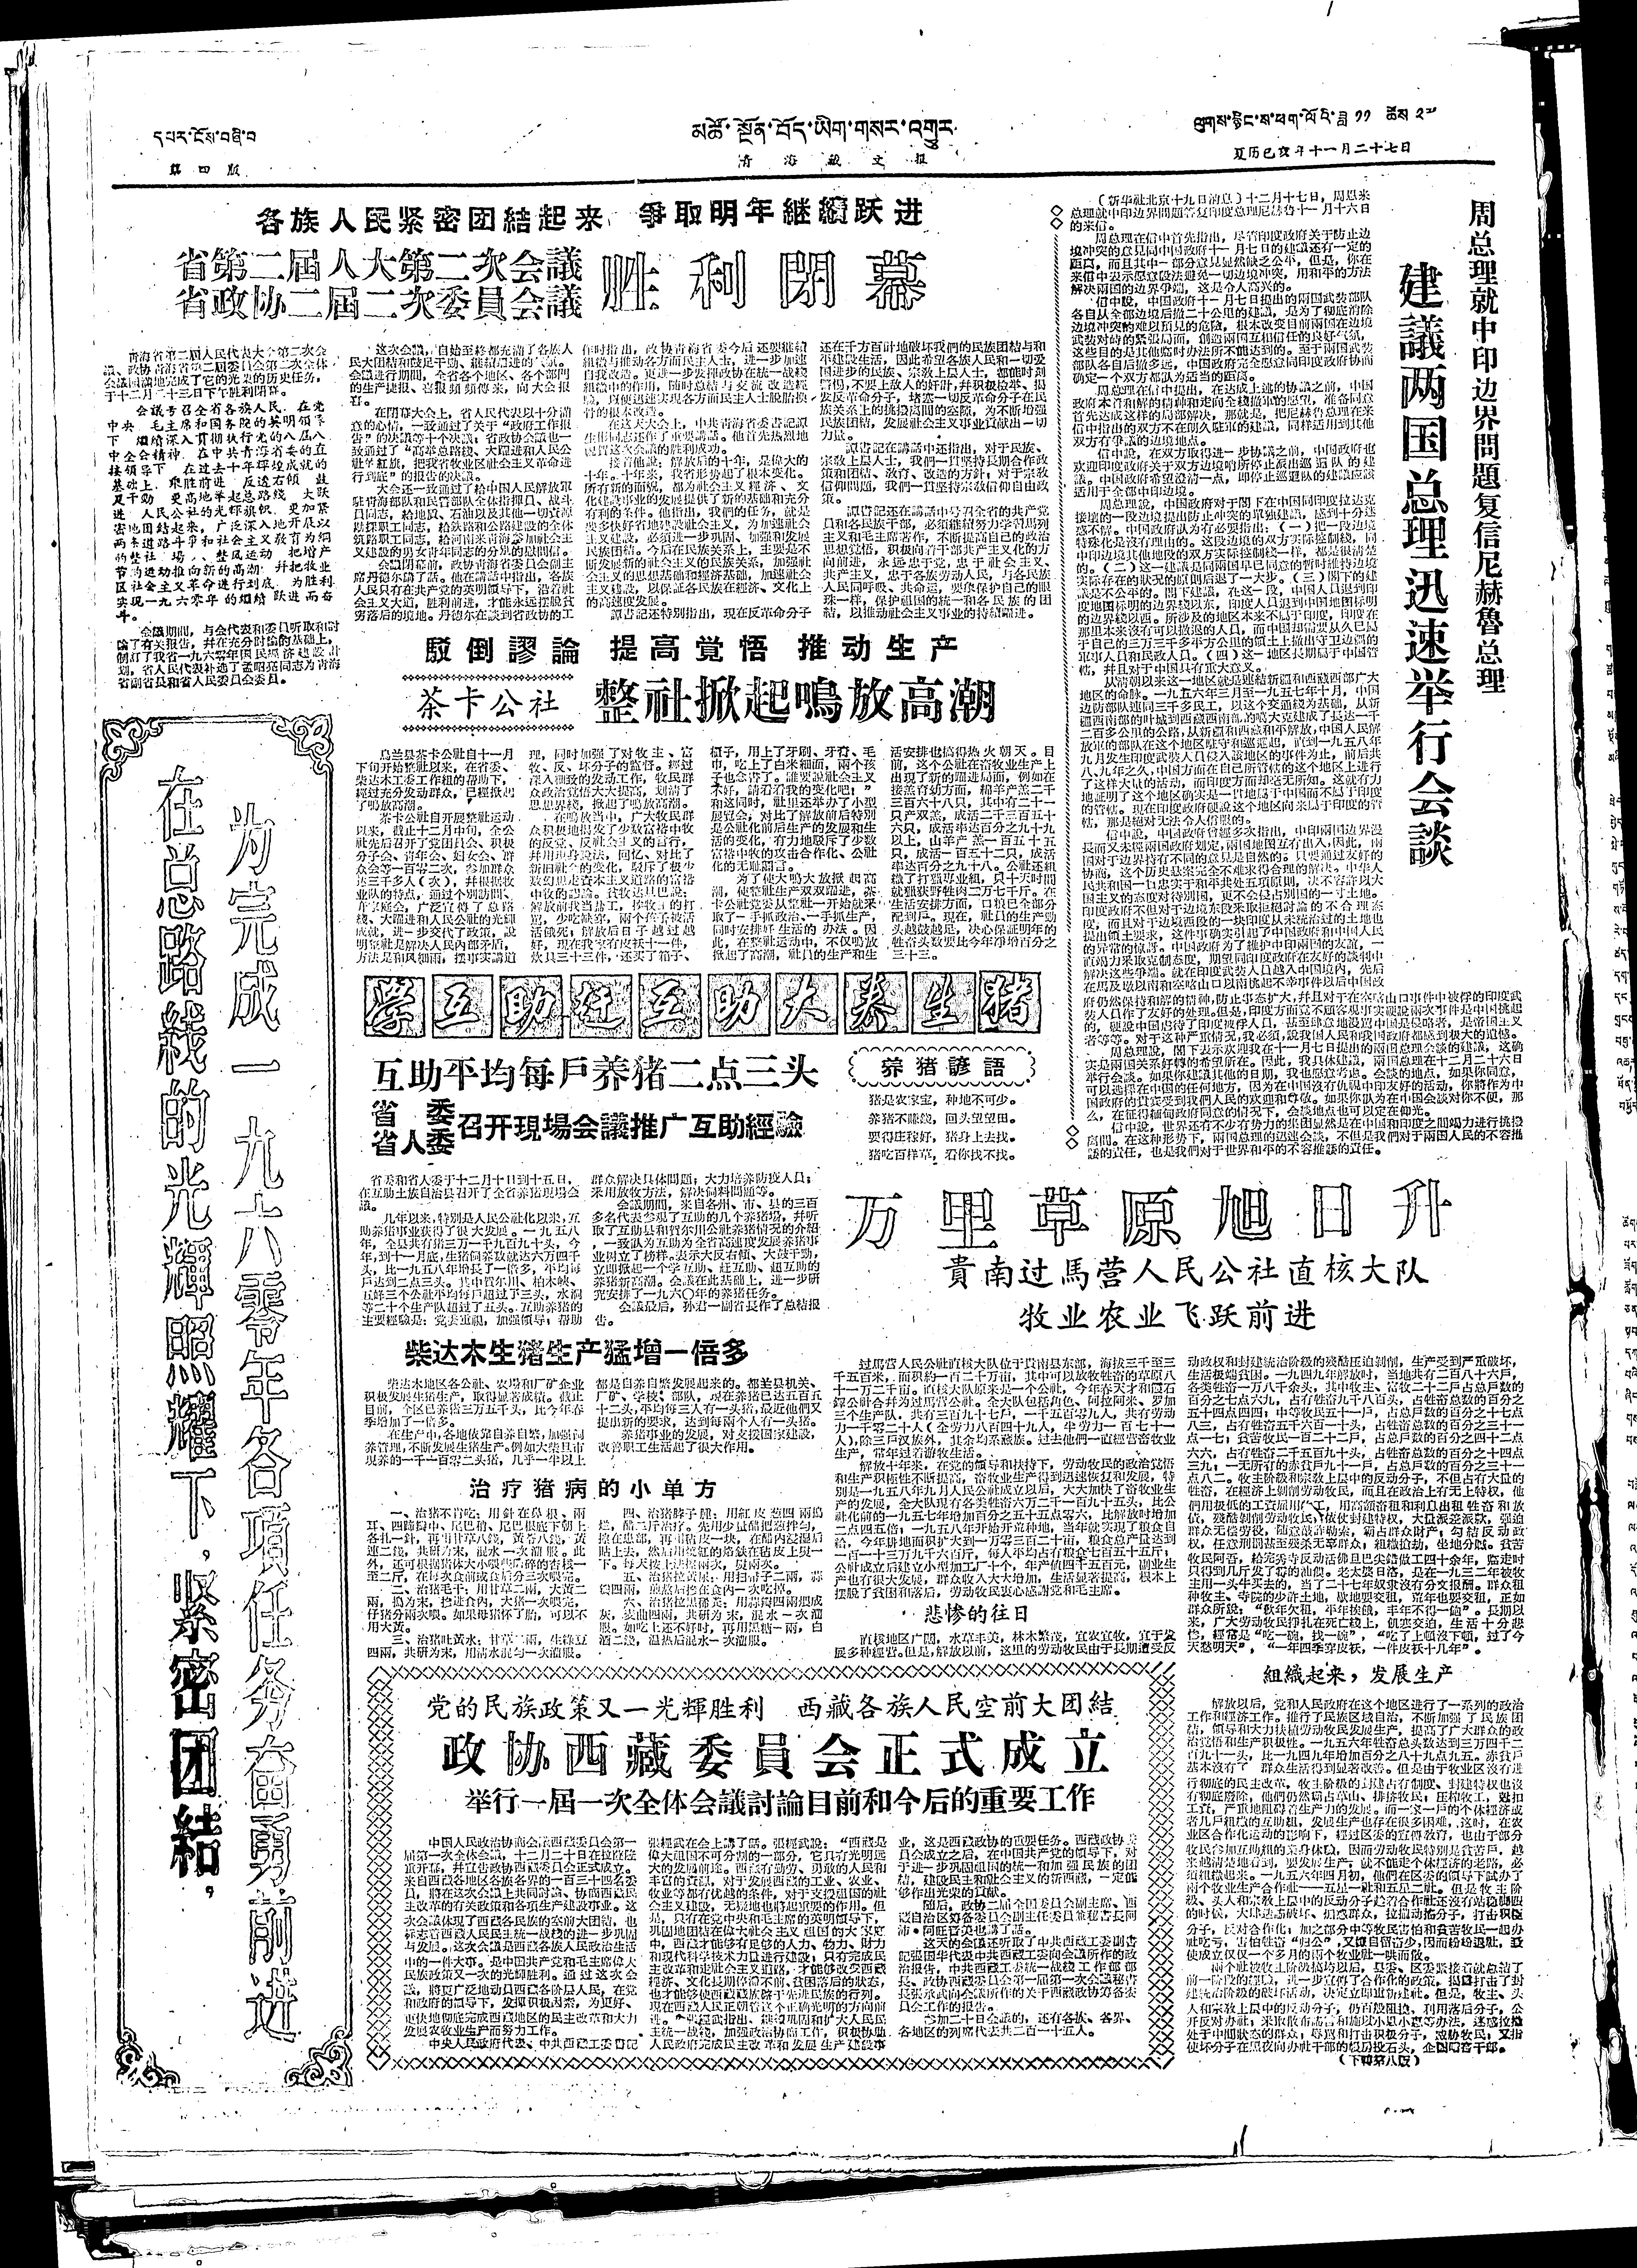དཔར་ངོས་བཞི་བ མཚོ་སྔོན་བོད་ཡིག་གསར་འགྱུར ལུགས་རྙིང་ས་ཕག་ལོའི་ཟླ ༡༡ ཚེས ༢༧
第 四 版 青 海 藏 文 报 夏历己亥年十一月二十七日
各族人民緊密团結起来，爭取明年継續跃进
省第二屆人大第二次会議
省政協二屆二次委員会議
胜 利 閉 幕
靑海省第二屆人民代表大会第二次公
議、政协靑海省第二屆委員会第二次全体
会議圆滿地完成了它的光荣的历史任务，
于十二月二十三日下午胜利閉幕。
会議号召全省各族人民，在党
中央、毛主席和国务院的英明領导
下 継續深入貫彻执行党的八屆八
中全会精神，在中共靑海省委的直
接領导下 在过去十年輝煌成就的
基础上，乘胜前进 反透右傾 鼓
足干勁 更高地举起总路綫 大跃
进 人民公社的光輝旗帜，又加紧
密地团結起来，广泛深入地开展以
两条道路斗爭和社会主义敎育为綱
的整社 場 、整风运动，把增产
节约运动推向新的高潮，并把牧业
区社全主义革命进行到底，为胜利
实現一九六零年的継續 跃进而奋
斗。
会議期間，与会代表和委員听取和討
論了有关报告，并在充分討論的基础上，
制訂了我省一九六零年国民經济建設計
划，省人民代表补选了孟昭亮同志为靑海
省副省長和省人民委員会委員。
这次会議，自始至終都充滿了各族人
民大团結和鼓足干勁、継續躍进的气氛。
会議进行期間，全省各个地区、各个部門
的生产捷报、喜报頻頻傳来，向大会报
喜。
在閉幕大会上。省人民代表以十分滿
意的心情，一致通过了关于“政府工作报
告”的決議等十个決議：省政协会議也一
致通过了“高举总路綫、大躍进和人民公
社的紅旗，把我省牧业区社会主义革命进
行到底”的报告的決議。
大会还一致通过了給中国人民解放軍
駐靑海部队和民警部队全体指揮員、战斗
員同志，給地貭、石油以及其他一切資源
勘探职工同志，給鉄路和公路建設的全体
筑路职工同志，給河南来靑海參加社会主
义建設的男女靑年同志的分别的慰間信。
会議閉幕前，政协靑海省委員会副主
席丹德尔講了話。他在講話中指出，各族
人民只有在共产党的英明領导下，沿着社
会主义大道，胜利前进，才能永远摆脫貧
穷落后的境地。丹德尔在談到省政协的工
作时指出，政协靑海省委今后还要継續
組織与推动各方面民主人士，进一步加速
自我改造。更进一步发揮政协在統一战綫
組織中的作用，随时总結与交流改造經
驗，以便迅速实現各方面民主人士脫胎換
骨的根本改造。
在这天大会上，中共靑海省委書記譚
生彬同志还作了重要講話。他首先热烈地
祝賀这次会議的胜利成功。
接着他說：解放后的十年，是偉大的
十年。十年来，我省形势起了根本变化。
所有新的面貌，都为社会主义經济、文
化建設事业的发展提供了新的基础和充分
有利的条件。他指出，我們的任务，就是
要多快好省地建設社会主义，为加速社会
主义建沒，必須进一步巩固、加強和发展
民族团結。今后在民族关系上，主要是不
断发展新的社会主义的民族关系，加強社
会主义的思想建础和經济运础，加速社会
主义建設，以保社各民族在經济、文化上
的高速度发展。
譚書記还特別指出，現在反革命分子
还在千方百計地破坏我們的民族团結与和
平建設生活，因此希望各族人民和一切爱
国进步的民族、宗敎上层人士，都能时刻
警惕，不要上敌人的奸計，并积极檢举、揭
发反革命分子，堵塞一切反革命分子在民
族关系上的挑撥离間的空隙，为不断增強
民族团結，发展社会主义事业貢献出一切
力量。
譚書記在講話中还指出，对于民族、
宗敎上民人士，我們一貫坚持長期合作政
策和团結、敎育、改造的方針；对于宗敎
信仰問題，我們一貫坚持宗敎信仰自由政
策。
譚書記还在講話中号召全省的共产党
員和各民族干部，必須継續努力学習馬列
主义和毛主席著作，不断提高自己的政治
思想覚悟，积极向着干部共产主义化的方
向前进，永远忠于党，忠于社会主义、
共产主义，忠于各族劳动人民，与各民族
人民同呼吸、共命运，要象保护自己的眼
珠一样，保护祖国的統一和各民族的团
結，以推动社会主义事並的持續躍进。
駁 倒 謬 論 提 高 覚 悟 推 动 生 产
茶卡公社
整社掀起鳴放高潮
烏兰县茶卡公社自十一月
下旬开始整社以来，在省委、
柴达木工委工作組的帮助下，
經过充分发动群众，已經掀起
了鳴放高潮。
茶卡公社白开展整社运动
以来，截止十二月中旬，全公
社先后召开了党团員会、积极
分子会、靑年会、妇女会、群
众会等一百零二次，參加群众
达三千多人（次），并根据牧
业队的特点，通过个別訪問、
开家庭会，广泛宣傳了总路
綫、大躍进和人民公社的光輝
成就，进一步交代了政策，說
明整社是解決人民內部矛盾，
方法是和风細雨，摆事实講道
理，同时加强了对牧主、富
牧、反、坏分子的监督。經过
深入細致的发动工作，牧民群
众政治覚悟大大提高，划清了
思想界綫，掀起了鳴放高潮。
在鳴放当中，广大牧民群
众积极地揭发了少数富裕中牧
的反党、反社会主义的言行，
并用現身說法，回忆、对比了
新旧社全的变化，駁斥了极少
數幻想走資本主义道路的富裕
中牧的謬論。貧牧达旦巴說：
解放前我当盐工，挨牧主的打
罵，少吃缺穿，兩个孩子被活
活餓死；解放后日子越过越
好，現在我家有皮袄十一件，
炊具三十三件，还头了箱子、
櫃子，用上了牙刷、牙膏、毛
巾，吃上了白米細面，兩个孩
子也念書了。誰要說社会主义
不好，請看看我的变化吧！”
和这同时，社里还举办了小型
展覽会，对比了解放前后特别
是公社化前后生产的发展和生
活的变化，有力地駁斥了少数
富裕中牧的攻击合作化、公社
化的无耻谰言。
为了使大鳴大放掀起高
潮，使整社生产双双躍进，茶
卡公社党委从整社一开始就采
取了一手抓政治、一手抓生产，
同时安排好生活的办法。因
此，在整社运动中，不仅鳴放
掀起了高潮，社員的生产和生
活安排也搞得热火朝天。目
前，这个公社在畜牧业生产上
出現了新的躍进局面，例如在
接羔育幼方面，綿羊产羔二千
三百六十八只，其中有二十一
只产双羔，成活二千三百五十
六只，成活率达百分之九十九
以上，山羊产羔一百五十五
只，成活一百五十二只，成活
率达百分之九十八。公社还組
織了打獵專业組，只十天时間
就獵获野牲肉二万七千斤。在
生活安排方面，口粮已全部分
配到户。現在，社員的生产勁
头越鼓越足，決心保証明年的
牲畜头数要比今年淨增百分之
三十三。
周总理就中印边界問題复信尼赫魯总理
建議两国总理迅速举行会談
（新华社北京十九日消息）十二月十七日，周恩来
总理就中印边界問題答复印度总理尼赫魯十一月十六日
的来信。
周总理在信中首先指出，尽管印度政府关于防止边
境冲突的意見同中国政府十一月七日的建議还有一定的
距离，而且其中一部分意見显然缺乏公平，但是，你在
来信中表示愿意設法避免一切边境冲突，用和平的方法
解决两国的过界爭端，这是令人高兴的。
信中說，中国政府十一月七日提出的两国武装部队
各自从全部边境后撤二十公里的建議，是为了彻底消除
边境冲突的难以預見的危險。根本改变目前兩国在边境
武装对峙的紧張局面，創造兩国互相信任的良好气氛，
这些目的是其他临时办法所不能达到的。至于兩国武装
部队各自后撤多远，中国政府完全愿意同印度政府协商
确定一个双方都认为适当的距离。
周总理在信中提出，在达成上述的协議之前，中国
政府本着和解的精神和走向全綫撤軍的愿望，准备同意
首先达成这样的局部解決，那就是，把尼赫魯总理在来
信中指出的双方不在朗久駐軍的建議，同样适用到其他
双方有爭議的边境地点。
信中說，在双方取得进一步协議之前，中出政府也
欢迎印度政府关于双方边境哨所停止派出巡逻队的建
議。中国政府希望澄清一点：即停止巡逻队的建議应該
适用于全部中印边境。
周总理說，中国政府对于閣下在中国同印度拉达克
接壤的一段边境提出防止冲突的單独建議，感到十分迷
惑不解。中国政府认为有必要指出：（一）把一段边境
特殊化是沒有理由的。这段边境的双方实际控制綫，同
中印边境其他地段的双方实际控制綫一样，都是很清楚
的。（二）这一建議是同兩国早已同意的暫时維持边境
实际存在的狀况的原則后退了一大步。（三）閣下的建
議是不公平的。閣下建議，在这一段，中国人員退到印
度地图标明的边界綫以东，印度人員退到中国地图标明
的边界綫以西。所涉及的地区本来不属于印度，印度在
那里本来沒有可以撤退的人員，而中国却需要从久已属
于自己的三万三千多平方公里的領土上撤出守卫边疆的
軍事人員和民政人員。（四）这一地区長期属于中国管
轄，并且对于中国具有重大意义。
从清期以来这一地区就是連結新疆和西藏西部广大
地区的命脉。一九五六年三月至一九五七年十月，中国
边防部队連同三千多民工，以这个交通綫为基础，从新
疆西南部的叶城到西藏西南部的噶大克建成了長达一千
二百多公里的公路，从新疆和西藏和平解放，中国人民解
放軍的部队在这个地区駐守和巡逻起，直到一九五八年
九月发生印度武装人員侵入該地区的事件为止，前后共
八、九年之久，中国方面在自己所管轄的这个地区上进行
了这样大量的活动，而印度方面却毫无所知。这就有力
地証明了这个地区确实是一貫地属于中国而不属于印度
的管轄。現在印度政府硬說这个地区向来属于印度的管
轄，那是絕对无法令人信服的。
信中說，中国政府曾經多次指出，中印兩国边界漫
長而又未經兩国政府划定，兩国地图互有出入，因此，兩
国对于边界持有不同的意見是自然的。只要通过友好的
协商，这个历史悬案完全不难求得合理的解决。中华人
民共和国一貫忠实于和平共处五項原則，以不容許以大
国主义的态度对待別国，更不会侵占別国的一寸土地。
印度政府不但对于边境东段采取拒絕討論的不合理态
度，而且对于边境西段的一块印度从未統治过的土地也
提出領主要求，这件事确实引起了中国政府和中国人民
的异常的惊訝。中国政府为了維护中印兩国的友誼，一
直竭力采取克制态度，期望同印度政府在友好的談判中
解決这些爭端。就在印度武装人員越入中国境内，先后
在馬及墩以南和空喀山口以南挑起不幸事件以后中国政
府仍然保持和解的精神，防止事态扩大，并且对于在空喀山口事件中被俘的印度武
装人員作了友好的处理。但是，印度方面竟不頋客覌事实硬說兩次事件是中国挑起
的，硬說中国虐待了印度被俘人員，甚至肆意地漫罵中国是侵略者，是帝国主义
者等等。对于这种严重情況，我必須，說我国人民和我国政府都感到极大的遺憾。
周总理說，閣下表示欢迎我在十一月七日提出的兩国总理会談的建議，这确
实是兩国关系好轉的希望所在。因此，我具体建議，兩同总理在十二月二十六日
举行会談。如果你建議其他的日期，我也愿意考虑。会談的地点，如果你同意，
可以选擇在中国的任何地方，因为在中国沒有仇視中印友好的活动，你將作为中
国政府的貴宾受到我們人民的欢迎和尊敬。如果你认为在中国会談对你不便，那
么，在征得緬甸政府同意的情况下，会談地点也可以定在仰光。
信中說，世界还有不少有势力的集团显然是在中国和印度之間竭力进行挑撥
离間。在这种形势下，兩国总理的迅速会談，不但是我們对于兩国人民的不容推
諉的責任，也是我們对于世界和平的不容推諉的責任。
在总路线的光輝照耀下，紧密团結
为完成一九六零年各項任务奋勇前进
互助平均每戶养猪二点三头
省 委
省人委
召开現場会議推广互助經驗
养 猪 諺 語
猪是农家宝，种地不可少。
养猪不賺錢，回头望望田。
要得庄稼好，猪身上去找。
猪吃百样草，看你找不找。
省委和省人委十十二月十日到十五日，
位互助土族自治县召开了全省养猪現場会
議。
几年以来，特别是人民公社化以来，互
助养猪事业获得了很大发展。一九五八
年，全县共有猪三万一千九百九十头，今
年，到十一月底，生猪飼养数就达六万四千
头，比一九五八年增長了一倍多，平均每
戶达到二点三头。其中賀尔川、柏木峽、
五峰三个公社平均每户超过了三头，水洞
等二十个生产队超过了五头。互助养猪的
主要經驗是：党委重視，加強領导，帮助
群众解決具体問題；大力培养防疫人員；
采用放牧方法，解决飼料問題等。
会議期間，来自各州、市、县的三百
多名代表参覌了互助的几个养猪場，并听
取了互助县和賀尔川公社养猪情况的介紹
，一致认为互助为全省高速度发展养猪事
业树立了榜样。表示大反右傾、大鼓干勁，
立即掀起一个学互助、赶互助、超互助的
养猪新高潮。会議在此基础上，进一步研
究安排了一九六〇年的养猪任务。
会議最后，孙君一副省長作了总結报
告。
柴达木生猪生产猛增一倍多
柴达木地区各公社、农場和厂矿企业
积极发展生猪生产，取得显著成績。截止
目前，全区已养猪三万五千头，比今年春
季增加了一倍多。
在生产中，各地依靠自养自繁，加強飼
养管理，不断发展生猪生产。例如大柴旦市
現养的一千一百零二头猪，几乎一半以上
都是自养自繁发展起来的。都兰县机关、
厂矿、学校、部队，現在养猪已达五百五
十二头，平均每三人有一头猪，最近他們又
提出新的要求，达到每兩个人有一头猪。
养猪事业的发展，对支援国家建設，
改善职工生活起了很大作用。
治 疗 猪 病 的 小 单 方
一、治猪不肯吃：用針在鼻根、两
耳、四蹄瓣中、尾巴稍、尾巴根底下朝上
各扎一針，再用甘草八錢，黃苓八錢，黃
連二錢，共研为末，混水一次溜服。此
外，还可根据猪体大小喂些压碎的杏核一
至二斤，在每次食前或食后分三次喂完。
二、治猪毛干：月甘草二兩，大黃二
兩，搗为末，掺进食內，大猪一次喂完，
仔猪分兩次喂。如果母猪怀了胎，可以不
用大黄。
三、治猪吐黄水：甘草二兩，生綠豆
四兩，共研为末，用清水混勻一次灌服。
四、治猪脖子腫：用紅皮葱四兩搗
烂，醋三斤治疗。先用少量醋把葱拌匀，
擦在患部，再用毡皮一块，在醋內浸湿后
貼上去，然后用燒紅的烙鉄在毡皮上熨一
下。每天按上法擦兩次，熨兩次。
五、治猪拉黄尿：用扫帚子二兩，蒜
瓣四兩，煎熬后掺在食內一次吃掉。
六、治猪拉黑稀粪：用蒜瓣四兩煨成
灰，麦曲四兩，共研为末，混水一次灌
服。如吃上还不好时，再用黑糖一兩，白
酒二錢，温热后混水一次灌服。
党的民族政策又一光輝胜利 西藏各族人民空前大团結
政協西藏委員会正式成立
举行一屆一次全体会議討論目前和今后的重要工作
中国人民政治协商会議西藏委員会第一
届第一次全体会議，十二月二十日在拉薩隆
重开幕，并宣告政协西藏委員会正式成立。
来自西藏各地区各族各界的一百三十四名委
員，將在这次会議上共同討論、协商西藏民
主改革的有关政策和各項生产建設事业。这
次会議体現了西藏各民族的空前大团結，也
标志着西藏人民民主統一战綫的进一步巩固
与发展。这次会議是西藏各族人民政治生活
中的一件大事。是中国共产党和毛主席偉大
民族政策又一次的光輝胜利。通过这次会
議，將更广泛地动員西藏各阶层人民，在党
和政府的領导下，发揮积极因素，为更好、
更快地彻底完成西藏地区的民主改革和大力
发展农牧业生产而努力工作。
中央人民政府代表、中共西藏工委書記
張經武在会上講了話。張經武說：“西藏是
偉大祖国不可分割的一部分，它具有光明远
大的发加前途。西藏有勤劳、勇敢的人民和
丰富的資源，对于发展西藏的工业、农业、
牧业等都有优越的条件，对于支援祖因的社
会主义建設，无疑地也將起重要的作用。但
是，只有在党中央和毛主席的英明領导下，
巩固地团結在偉大社会主义祖国的大家庭
中，西藏才能够有足够的人力、物力、財力
和現代科学技术力且进行建設；只有完成民
主改革和走社会主义道路，才能够改变西藏
經济、文化長期停滞不前、貧困落后的狀态，
也才能够使西藏藏族跻于先进民族的行列。
現在西藏人民正朝着这个正确光明的方向前
进。 張經武指出、継續巩固和扩大人民民
主統一战綫，加強政治协商工作，积极协助
人民政府完成民主改革和发展生产建設事
业，这是西藏政协的重要任务。西藏政协委
員会成立之后，在中国共产党的領导下，对
于进一步巩固祖国的統一和加強民族的团
結，建設民主和社会主义的新西藏，一定能
够作出光荣的貢献。
随后，政协二屆全国委員会副主席、西
藏自治区筹备委員会副主任委員兼祕書長阿
沛・阿旺晉美也講了話。
这天的会議还听取了中共西藏工委副書
記張国华代表中共西藏工委向会議所作的政
治报告，中共西藏工委統一战綫工作部部
長、政协西藏委員会第一屆第一次会議祕書
長張承武向会議所作的关千西藏政协筹备委
員会工作的报告。
参加二十日会議的，还有各族、各界、
各地区的列席代表共二百一十五人。
万 里 草 原 旭 日 升
貴南过馬营人民公社直核大队
牧业农业民飞跃前进
过馬营人民公社直核大队位于貴南县东部，海拔三千至三
千五百米，面积約一百二十万亩，其中可以放牧牲畜的草原八
十一万二千亩。直核大队原来是一个公社，今年春天才和霞石
鐸公社合并为过馬营公社。全大队包括角色、阿拉阿米、罗加
三个生产队，共有三百九十七戶，一千五百零九人，共有劳动
力一千零二十人（全劳力八百四十九人，半劳力一百七十一
人），除三戶汉族外，其余均系藏族。过去他們一直經营畜牧业
生产，常年过有游牧生活。
解放十年来，在党的領导和扶持下，劳动牧民的政治覚悟
和生产积極性不断提高，畜牧业生产得到迅速回复和发展，特
別是一九五八年九月人民公社成立以后，大大加快了畜牧业生
产的发展，全大队現有各类牲畜六万二千一百九十五头，比公
社化前的一九五七年增加百分之五十五点零六，比解放时增加
二点四五倍；一九五八年开始开荒种地，当年就实現了粮食自
給，今年耕地面积扩大到一万零三百二十亩，粮食总产量达到
一百一十三万九千六百斤，每人平均占有粮食七百五十五斤，
公社成立后建立小型加工厂十个，年产值四千五百元，副业生
产也有很大发展，群众收入大大增加，生活显著提高，根本上
摆脫了貧困和落后，劳动牧民衷心感謝党和毛主席。
悲惨的往日
直核地区广闊，水草丰美，林木繁茂，宜农宜牧，宜于发
展多和經营。但是，解放以前，这里的劳动牧民由于長期遭受反
动政权和封建統治阶級的殘酷压迫剝削，生产受到严重破坏，
生活极端貧困。一九四九年解放时，当地共有二百八十六戶，
各类牲畜一万八千余头，其中牧主、富牧二十二戶占总戶数的
百分之七点六九，占有牲畜九千八百头，占牲畜总数的百分之
五十四点四四；中等牧民五十一戶，占总戶数的百分之十七点
八三，占有牲畜五千六百一十头，占牲畜总数的百分之三十一
点一七；貧苦牧民一百二十二戶，占总戶数的百分之四十二点
六六，占有牲畜二千五百九十头，占牲畜总数的百分之十四点
三九；一无所有的赤貧戶九十一戶，占总戶数的百分之三十一
点八二。牧主阶級和宗敎上层中的反动分子，不但古有大量的
牲畜，在經济上剝削劳动牧民，而且在政治上有无上特权，他
們用极低的工資雇用的工，用高額畜租和利息出租牲畜和放
債，殘酷剝削劳动牧民，依仗封建特权，大量派差派款，強迫
群众无偿劳役，随意敲詐勒索，霸占群众財产；勾結反动政
权，任意刑罰甚至殘杀无辜群众；組織搶劫，坐地分贓。貧苦
牧民阿吾，給完秀寺反动活佛旦巴尖錯做工四十余年，临走时
只得到几斤发了霉的油馍。老太婆日洛，是在一九三二年被牧
主用一头牛头去的，当了二十七年奴隶沒有分交报酬。群众租
种牧主、寺院的少許土地，歇地要交租，荒年也要交祖，正如
群众所說：“歉年欠租，平年挨餓，丰年不得一飽”。長期以
来，广大劳动牧民掙扎在死亡綫上，飢寒交迫，生活十分悲
惨，經常是“吃一碗，找一碗”，“吃了上頓沒下頓，过了今
天愁明天”，“一年四季穿皮袄，一件皮袄十几年”。
組織起来，发展生产
解放以后，党和人民政府在这个地区进行了一系列的政治
工作和經济工作。推行了民族区域自治，不断加強了民族团
結，領导和大力扶植劳动牧民发展生产，提高了广大群众的政
治覚悟和生产积极性。一九五六年牲畜总头数达到三万四千二
百九十一头，比一九四九年增加百分之八十九点九五。赤貧戶
基本沒有了 群众生活得到显著改善。但是由于牧业区沒行进
行彻底的民主改革，牧主阶級的封建占有制度、封建特权也沒
有彻底廢除，他們仍然霸占草山、排挤牧民；压榨牧工，剋扣
工資，严重地阻碍着生产力的发展。而一家一戶的个体經济或
者几戶組織的互助組，发展生产也存在很多困难，这时，在农
业区合作化运动的影响下，經过区委的宣傳教育，也由于部分
牧民参加互助組的美好体驗，因而劳动牧民特別是貧苦戶，越
来越清楚地看到，要发展生产，就不能走个体經济的老路，必
須組織起来。一九五六年四月初，他們在区委的領导下試办了
兩个牧业生产合作社——五星一社和五星二社。但是牧主阶
級、头人和宗敎上层中的反动分子趁着合作社还沒有站稳脚跟
的时候，大肆造成破坏、煽惑群众，拉攏动摇分子，打击积極
分子，反对合作化；加之部分中等牧民害怕和貧苦牧民一起办
社吃亏，害怕牲畜“归公”，又嫌自留畜少，因而紛紛退社，致
使成立仅仅一个多月的两个牧业社一哄而散。
两个社被牧主阶級搞垮以后，县委、区委紧接着就总結了
前一阶段的經驗，进一步宣傳了合作化的政策。揭露打击了封
建统治阶級的破坏活动，決定立即重新建社。但是，牧主、头
人和宗敎上层中的反动分子，仍百般阻撓，利用落后分子，公
开反对办社；采取散布流言和施以小恩小惠等办法，迷惑拉攏
处于中間状态的群众，辱罵和打击积极分子，威胁牧民，又指
使坏分子在黑夜向办社干部的帳房投石头，企图戕害干部。
（下轉第八版）
